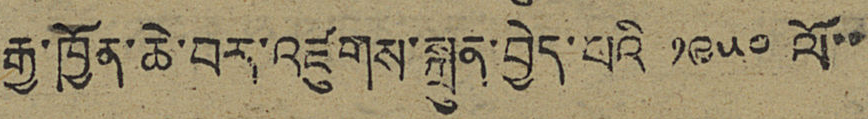རྒྱ་ཁྱོན་ཆེ་བར་འཛུགས་སྐྲུན་བྱེད་པའི ༡༩༥༠ ལོ་་
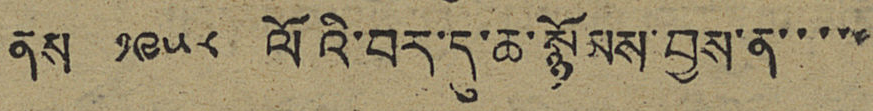ནས ༡༩༥༨ ལོའི་བར་དུ་ཆ་སྙོམས་བྱས་ན་་་་་
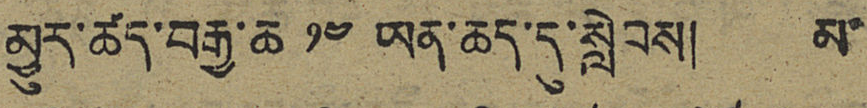མྱུར་ཚད་བརྒྱ་ཆ ༡༤ ཡན་ཆད་དུ་སླེབས། མ་
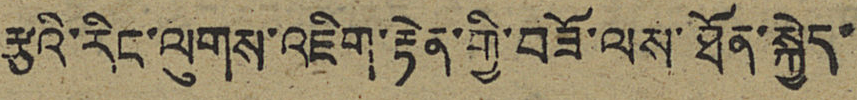རྩའི་རིང་ལུགས་འཇིག་རྟེན་གྱི་བཟོ་ལས་ཐོན་སྐྱེད་
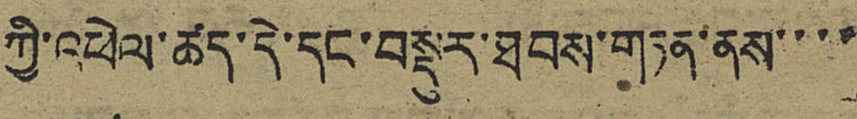ཀྱི་འཕེལ་ཚད་དེ་དང་བསྡུར་ཐབས་གཏན་ནས་་་་
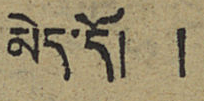མེད་དོ། །
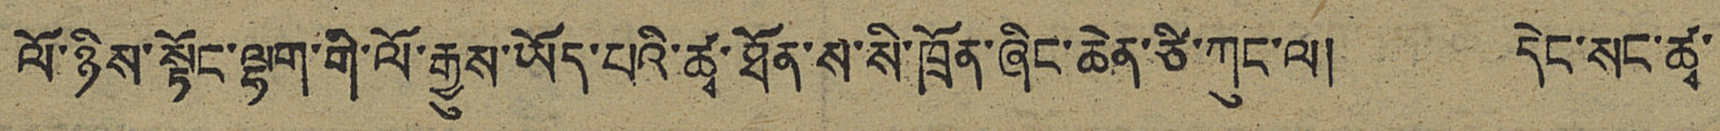ལོ་ཉིས་སྟོང་ལྷག་གི་ལོ་རྒྱུས་ཡོད་པའི་ཚྭ་ཐོན་ས་སི་ཁྲོན་ཞིང་ཆེན་ཙི་ཀུང་ལ། དེང་སང་ཚྭ་
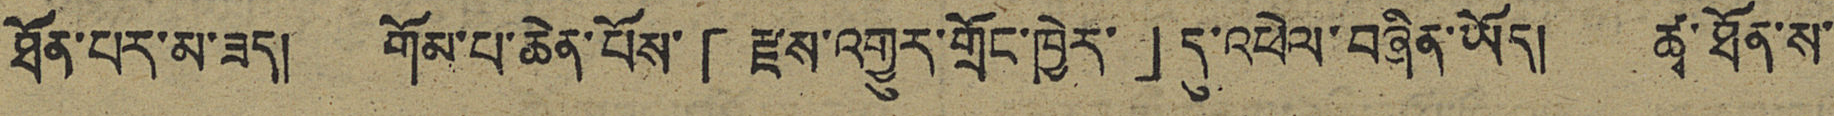ཐོན་པར་མ་ཟད། གོམ་པ་ཆེན་པོས་「རྫས་འགྱུར་གྲོང་ཁྱེར་」དུ་འཕེལ་བཞིན་ཡོད། ཚྭ་ཐོན་ས་
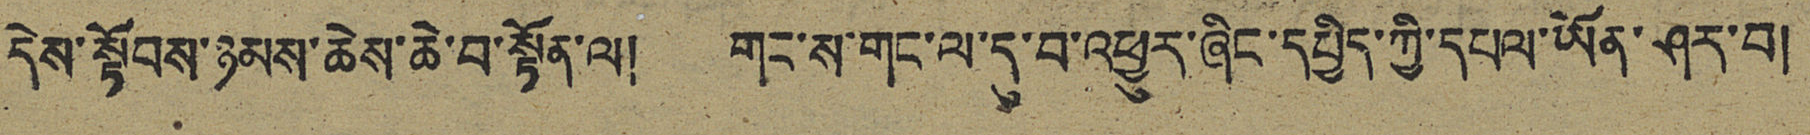དེས་སྟོབས་ཉམས་ཆེས་ཆེ་བ་སྟོན་ལ། གང་ས་གང་ལ་དུ་བ་འཕྱུར་ཞིང་དཔྱིད་ཀྱི་དཔལ་ཡོན་ཤར་བ།
